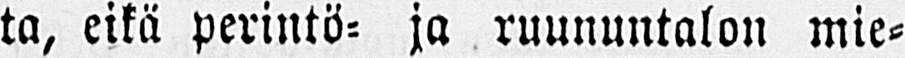ta, eikä perintö- ja ruununtalon mie-
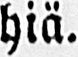hiä.
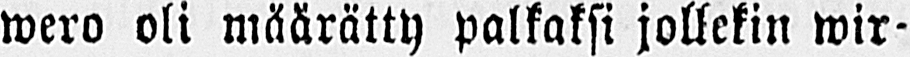wero oli määrätty palkaksi jollekin wir-
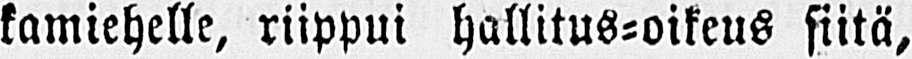kamiehelle, riippui hallitus-oikeus siitä,
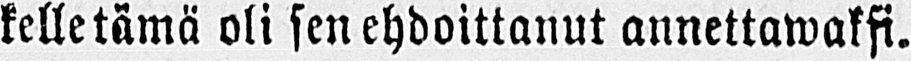kelle tämä oli sen ehdoittanut annettawaksi.
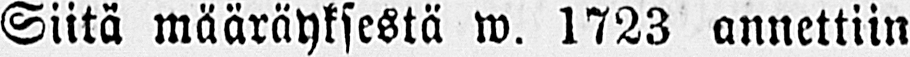Siitä määräyksestä w. 1723 annettiin
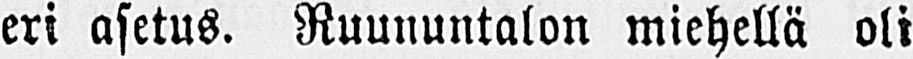eri asetus. Ruununtalon miehellä oli
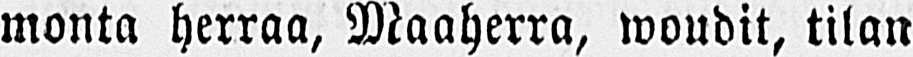monta herraa, Maaherra, woudit, tilan
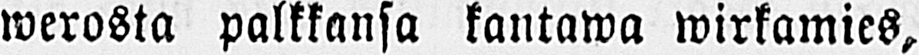werosta palkkansa kantawa wirkamies,
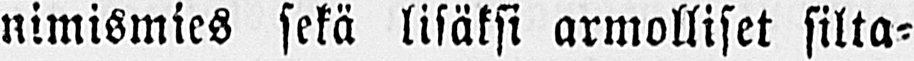nimismies sekä lisäksi armolliset silta-
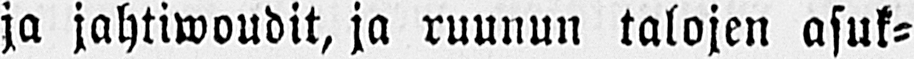ja jahtiwoudit, ja ruunun talojen asuk-
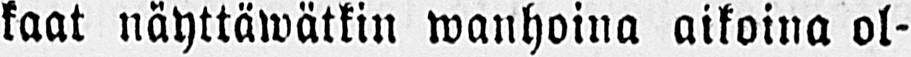kaat näyttäwätkin wanhoina aikoina ol-
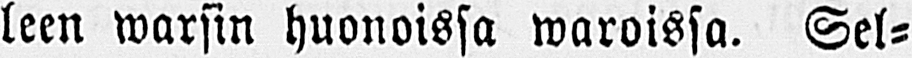leen warsin huonoissa waroissa. Sel-
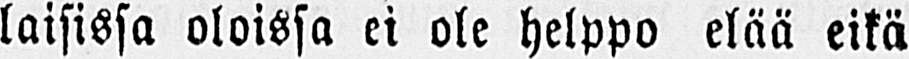laisissa oloissa ei ole helppo elää eikä
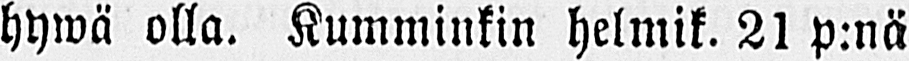hywä olla. Kumminkin helmik. 21 p:nä
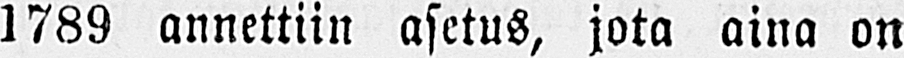1789 annettiin asetus, jota aina on
